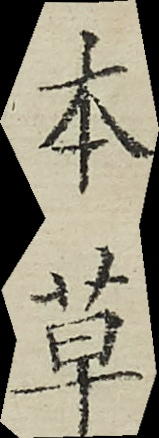本草
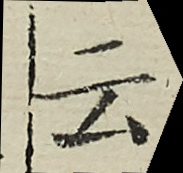云
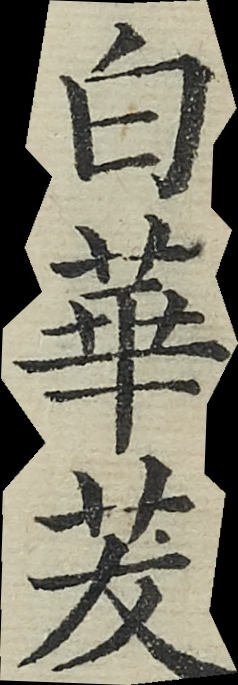白華茇
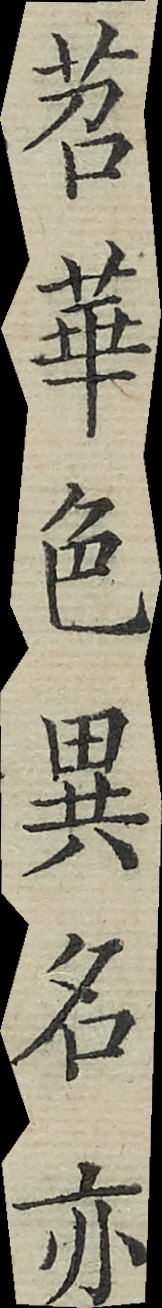苕華色異名亦
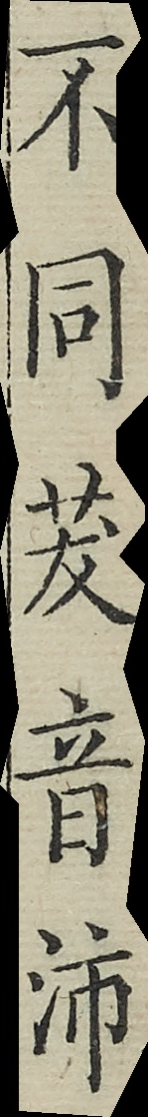不同茇音沛
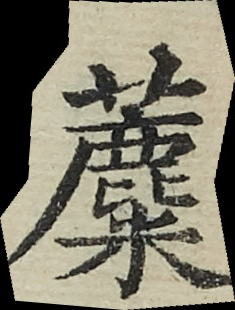蘪
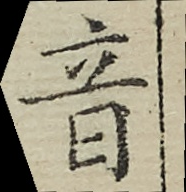音
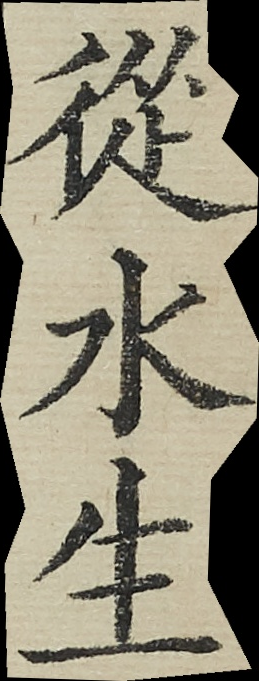從水生
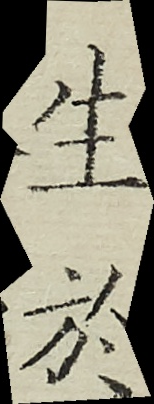生於
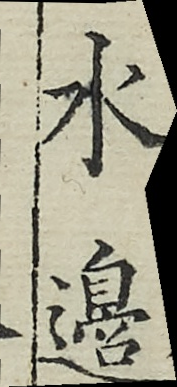水邊
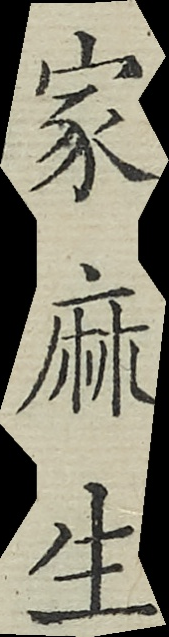家麻生
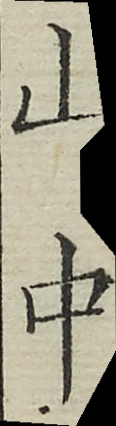山中
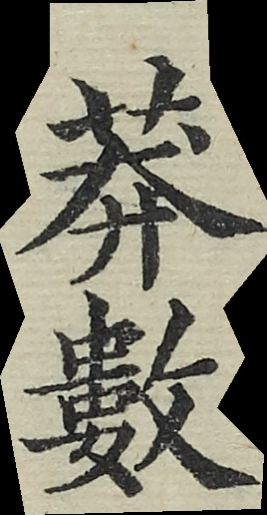莽數
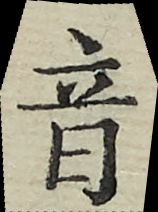音
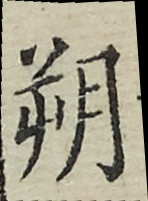朔
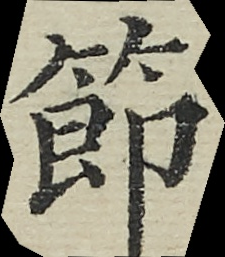節
